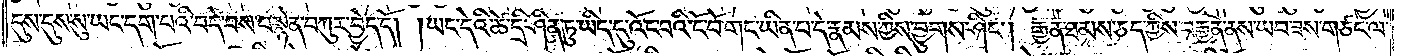དུས་དུས་སུ་ཡང་དག་པའི་བདེ་བས་བསྙེན་བཀུར་བྱེད་དོ། །ཡང་དེའི་ཚེ་དྲི་ཤིན་ཏུ་ཡིད་དུ་འོང་བའི་ངོ་བོ་གང་ཡིན་པ་དེ་རྣམས་ཀྱིས་བྱུགས་ཤིང༌། རྒྱན་ཐམས་ཅད་ཀྱིས་བརྒྱན་ནས་ཡབ་ཟས་གཙང་ལ་
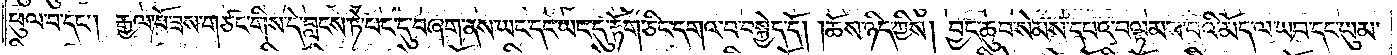ཕུལ་བ་དང༌། རྒྱལ་པོ་ཟས་གཙང་གིས་དེ་བླངས་ཏེ་པང་དུ་བཞག་ནས་ཡང་དང་ཡང་དུ་རྟོག་ཅིང་དགའ་བ་བསྐྱེད་དོ། །ཆོས་ཉིད་ཀྱིས། བྱང་ཆུབ་སེམས་དཔའ་བལྟམས་པའི་མོད་ལ་ཡབ་དང་ཡུམ་
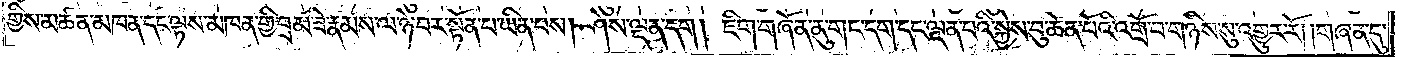གྱིས་མཚན་མཁན་དང་ལྟས་མཁན་གྱི་བྲམ་ཟེ་རྣམས་ལ་ཉེ་བར་སྟོན་པ་ཡིན་པས། ཤེས་ལྡན་དག །ཇིག་གཞོན་ནུ་གང་དག་དང་ལྡན་པའི་སྐྱེས་བུ་ཆེན་པོའི་འགྲོ་བ་གཉིས་སུ་འགྱུར་རོ། །གཞན་དུ་
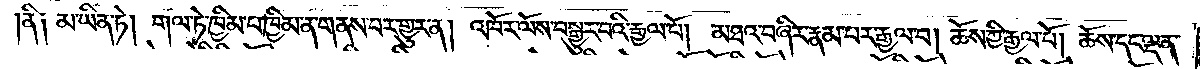ནི། མ་ཡིན་ཏེ། གལ་ཏེ་ཁྱིམ་པ་ཁྱིམ་ན་གནས་པར་གྱུར་ན། འཁོར་ལོས་བསྒྱུར་བའི་རྒྱལ་པོ། །མཐའ་བཞིར་རྣམ་པར་རྒྱལ་བ། ཆོས་ཀྱི་རྒྱལ་པོ། ཆོས་དང་ལྡན་
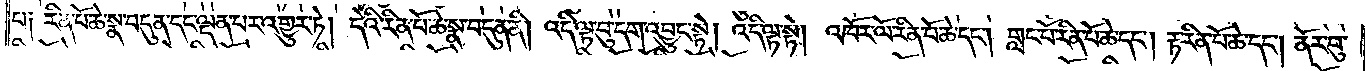པ། རིན་པོ་ཆེ་སྣ་བདུན་དང་ལྡན་པར་འགྱུར་ཏེ། དེའི་རིན་པོ་ཆེ་སྣ་བདུན་ནི། འདི་ལྟ་བུ་དག་འབྱུང་སྟེ། འདི་ལྟ་སྟེ། འཁོར་ལོ་རིན་པོ་ཆེ་དང༌། གླང་པོ་རིན་པོ་ཆེ་དང༌། རྟ་རིན་པོ་ཆེ་དང༌། ནོར་བུ་
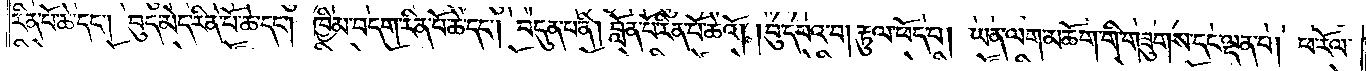རིན་པོ་ཆེ་དང༌། བུད་མེད་རིན་པོ་ཆེ་དང༌། ཁྱིམ་བདག་རིན་པོ་ཆེ་དང༌། བདུན་པ་ནི། བློན་པོ་རིན་པོ་ཆེའོ། །བུ་དཔའ་བ། རྟུལ་ཕོད་པ། ཡན་ལག་མཆོག་གི་གཟུགས་དང་ལྡན་པ། ཕ་རོལ་
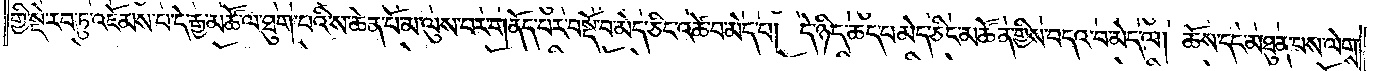གྱི་སྡེ་རབ་ཏུ་འཇོམས་པ་དེ་རྒྱ་མཚོ་ལ་ཐུག་པའི་ས་ཆེན་པོ་མ་ལུས་པར་གནོད་པར་བསྡོ་བ་མེད་ཅིང་འཚེ་བ་མེད་པ། དེ་ཉིད་ཆད་པ་མེད་ཅིང་མཚོན་གྱིས་བདའ་བ་མེད་ལ། ཆོས་དང་མཐུན་པས་ལེགས་
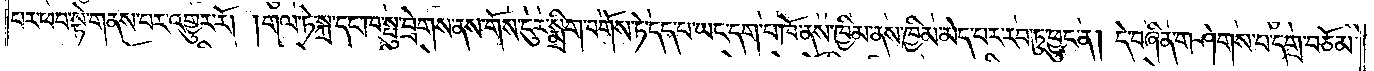པར་ཕབ་སྟེ་གནས་པར་འགྱུར་རོ། །གལ་ཏེ་སྐྲ་དང་ཁ་སྤུ་བྲེགས་ནས་གོས་ངུར་སྨྲིག་བགོས་ཏེ་དད་པ་ཡང་དག་པ་ཁོ་ནས་ཁྱིམ་ནས་ཁྱིམ་མེད་པར་རབ་ཏུ་ཕྱུང་ན། དེ་བཞིན་གཤེགས་པ་དགྲ་བཅོམ་
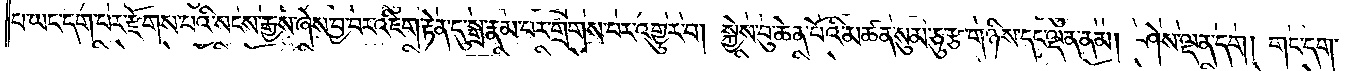པ་ཡང་དག་པར་རྫོགས་པའི་སངས་རྒྱས་ཞེས་བྱ་བར་འཇིག་རྟེན་དུ་སྒྲ་རྣམ་པར་གྲགས་པར་འགྱུར་བ། སྐྱེས་བུ་ཆེན་པོའི་མཚན་སུམ་ཅུ་རྩ་གཉིས་དང་ལྡན་ནམ། ཤེས་ལྡན་དག །གང་དག་
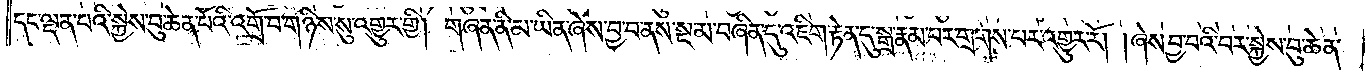དང་ལྡན་པའི་སྐྱེས་བུ་ཆེན་པོའི་འགྲོ་བ་གཉིས་སུ་འགྱུར་གྱི། གཞན་ནི་མ་ཡིན་ཞེས་བྱ་བ་ནས་སྔ་མ་བཞིན་དུ་འཇིག་རྟེན་དུ་སྒྲ་རྣམ་པར་གྲགས་པར་འགྱུར་རོ། །ཞེས་བྱ་བའི་བར་སྐྱེས་བུ་ཆེན་
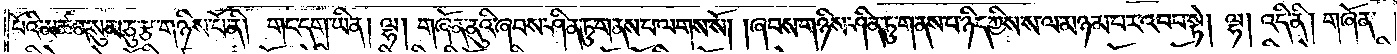པོའི་མཚན་སུམ་ཅུ་རྩ་གཉིས་པོ་ནི། གང་དག་ཡིན། ལྷ། གཞོན་ནུའི་ཞབས་ཤིན་ཏུ་གནས་པ་ལགས་སོ། །ཞབས་གཉིས་ཤིན་ཏུ་གནས་པ་ཉིད་ཀྱིས་ས་ལ་མཉམ་པར་འབབ་སྟེ། ལྷ། འདི་ནི། གཞོན་
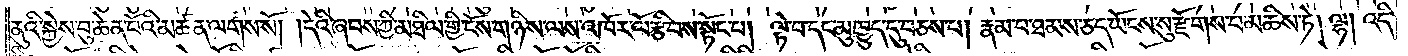ནུའི་སྐྱེས་བུ་ཆེན་པོའི་མཚན་ལགས་སོ། །དེའི་ཞབས་ཀྱི་མཐིལ་གྱི་ངོས་གཉིས་ལས་འཁོར་ལོ་རྩིབས་སྟོང་པ། ལྟེ་བ་དང་མུ་ཁྱུད་དུ་བཅས་པ། རྣམ་པ་ཐམས་ཅད་ཡོངས་སུ་རྫོགས་པ་མཆིས་ཏེ། ལྷ། འདི་
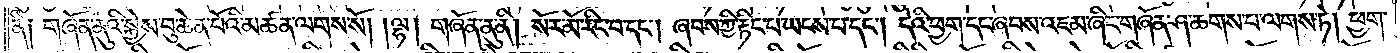ནི། གཞོན་ནུའི་སྐྱེས་བུ་ཆེན་པོའི་མཚན་ལགས་སོ། །ལྷ། གཞོན་ནུ་ནི། སོར་མོ་རིང་བ་དང༌། ཞབས་ཀྱི་རྟིང་པ་ཡངས་པ་དང༌། དེའི་ཕྱག་དང་ཞབས་འཇམ་ཞིང་གཞོན་ཤ་ཆགས་པ་ལགས་ཏེ། ཕྱག་
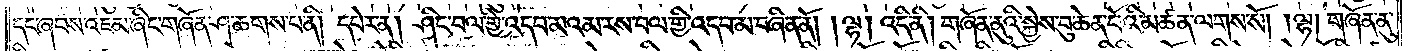དང་ཞབས་འཇམ་ཞིང་གཞོན་ཤ་ཆགས་པ་ནི། དཔེར་ན། ཤིང་བལ་གྱི་འདབ་མའམ་རས་བལ་གྱི་འདབ་མ་བཞིན་ནོ། །ལྷ། འདི་ནི། གཞོན་ནུའི་སྐྱེས་བུ་ཆེན་པོའི་མཚན་ལགས་སོ། །ལྷ། གཞོན་ནུ་
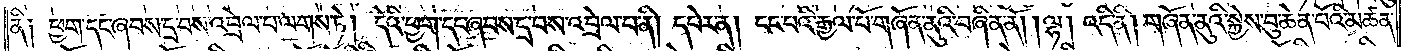ནི། ཕྱག་དང་ཞབས་དྲ་བས་འབྲེལ་བ་ལགས་ཏེ། དེའི་ཕྱག་དང་ཞབས་དྲ་བས་འབྲེལ་བ་ནི། དཔེར་ན། ངང་པའི་རྒྱལ་པོ་གཞོན་ནུའི་བཞིན་ནོ། །ལྷ། འདི་ནི། གཞོན་ནུའི་སྐྱེས་བུ་ཆེན་པོའི་མཚན་
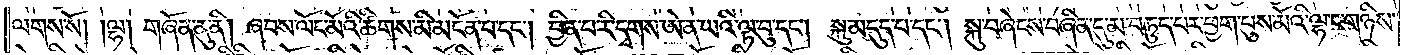ལགས་སོ། །ལྷ། གཞོན་ནུ་ནི། ཞབས་ལོང་མོའི་ཚིགས་མི་མངོན་པ་དང༌། བྱིན་པ་རི་དྭགས་ཨེ་ན་ཡའི་ལྟ་བུ་དང༌། སྐུ་མདུད་པ་དང༌། སྐུ་བཞེངས་བཞིན་དུ་མ་བཏུད་པར་ཕྱག་པུས་མོའི་ལྷ་ང་གཉིས་
